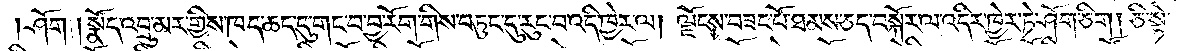ཤོག །སྣོད་འབྲུ་མར་གྱིས་ཁད་ཆད་དུ་གང་བ་བྱ་རོག་གིས་བཏུང་དུ་རུང་བ་འདི་ཁྱེར་ལ། ལྗོངས་བཟང་པོ་ཐམས་ཅད་བསྐོར་ལ་འདིར་ཁྱེར་ཏེ་ཤོག་ཅིག །ཅི་སྟེ་
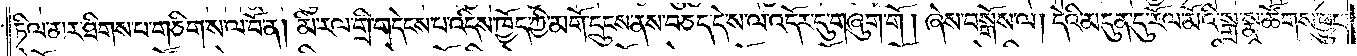ཏིལ་མར་ཐིགས་པ་གཅིག་ས་ལ་བོ་ན། མི་རལ་གྲི་གདེངས་པ་འདིས་ཁྱོད་ཀྱི་མགོ་དྲུངས་ནས་བཅད་དེ་ས་ལ་འདོར་དུ་གཞུག་གོ །ཞེས་བསྒོས་ལ། དེའི་མདུན་དུ་རོལ་མོའི་སྒྲ་སྣ་ཚོགས་ཕྱུང་
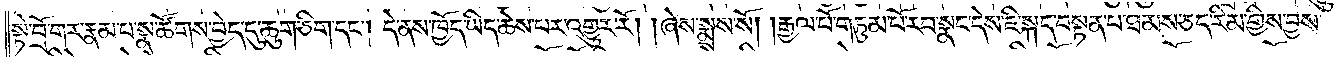སྟེ་བྲོ་གར་རྣམ་པ་སྣ་ཚོགས་བྱེད་དུ་ཆུག་ཅིག་དང༌། དེ་ནས་ཁྱོད་ཡིད་ཆེས་པར་འགྱུར་རོ། །ཞེས་སྨྲས་སོ། །རྒྱལ་པོ་གཏུམ་པོ་རབ་སྣང་དེས་ཇི་སྐད་བསྟན་པ་ཐམས་ཅད་རིམ་གྱིས་བྱས་
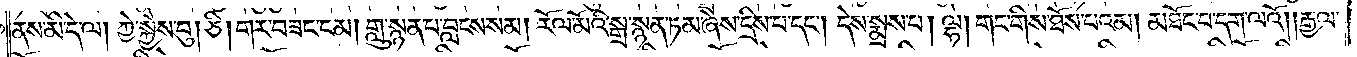ནས་མི་དེ་ལ། ཀྱེ་སྐྱེས་བུ། ཅི། གར་བཟང་ངམ། གླུ་སྙན་པ་བླངས་སམ། རོལ་མོའི་སྒྲ་སྙན་ཏམ་ཞེས་དྲིས་པ་དང༌། དེས་སྨྲས་པ། ལྷ། གང་གིས་ཐོས་པའམ། མཐོང་བ་དག་ལའོ། །རྒྱལ་
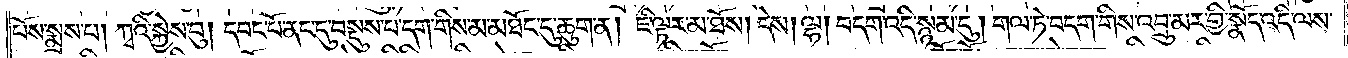པོས་སྨྲས་པ། ཀྭའི་སྐྱེས་བུ། དབང་པོ་ནང་དུ་བསྡུས་པ་དག་གིས་མ་མཐོང་དུ་ཆུག་ན། ཇི་ལྟར་མ་ཐོས། དེས། ལྷ། བདག་འདི་སྙམ་དུ། གལ་ཏེ་བདག་གིས་འབྲུ་མར་གྱི་སྣོད་འདི་ལས་
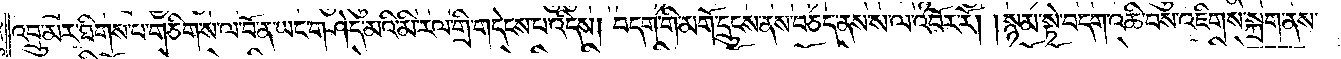འབྲུ་མར་ཐིགས་པ་གཅིག་ས་ལ་བོ་ན་ཡང་གཤེད་མའི་མི་རལ་གྲི་གདེངས་པ་འདིས། བདག་གི་མགོ་དྲུངས་ནས་བཅད་ནས་ས་ལ་འབོར་རོ། །སྙམ་སྟེ་བདག་འཆི་བས་འཇིགས་སྐྲག་ནས་
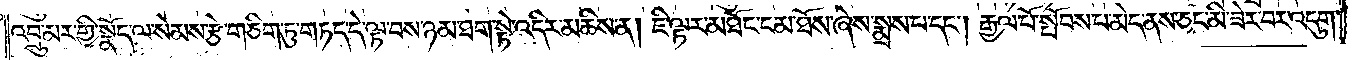འབྲུ་མར་གྱི་སྣོད་ལ་སེམས་རྩེ་གཅིག་ཏུ་གཏད་དེ་ལྟ་བས་ཉམ་ཐག་སྟེ་འདིར་མཆིས་ན། ཇི་ལྟར་མཐོང་ངམ་ཐོས་ཞེས་སྨྲས་པ་དང༌། རྒྱལ་པོ་སྤོབས་པ་མེད་ནས་ཅང་མི་ཟེར་བར་འདུག་
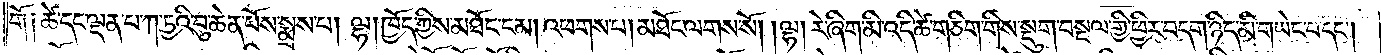གོ༑ ཚེ་དང་ལྡན་པ་ཀ་ཏྱའི་བུ་ཆེན་པོས་སྨྲས་པ། ལྷ། ཁྱོད་ཀྱིས་མཐོང་ངམ། འཕགས་པ། མཐོང་ལགས་སོ། །ལྷ། རེ་ཞིག་མི་འདི་ཚེ་གཅིག་གིས་སྡུག་བསྔལ་གྱི་ཕྱིར་བདག་ཉིད་མི་གཡེང་བ་དང༌།
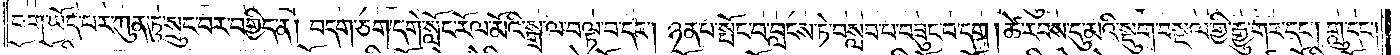བག་ཡོད་པར་ཀུན་ཏུ་སྲུང་བར་བགྱིད་ན། བདག་ཅག་དགེ་སློང་རོལ་མོའི་སྒྲ་ལ་བལྟ་བ་དང༌། ཉན་པ་སྤོང་བ་བླངས་ཏེ་བསླབ་པ་བཟུང་བ་དག །ཚེ་རབས་དུ་མའི་སྡུག་བསྔལ་གྱི་རྒྱུ་གར་དང༌། གླུ་དང་
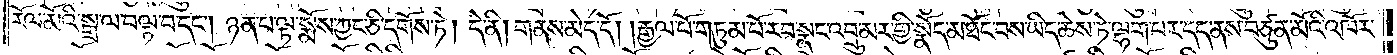རོལ་མོའི་སྒྲ་ལ་བལྟ་བ་དང༌། ཉན་པ་ལྟ་སྨོས་ཀྱང་ཅི་དགོས་ཏེ། དེ་ནི། གནས་མེད་དོ། །རྒྱལ་པོ་གཏུམ་པོ་རབ་སྣང་འབྲུ་མར་གྱི་སྣོད་མཐོང་བས་ཡིད་ཆེས་ཏེ་ལྷག་པར་དད་ནས་བཙུན་མོའི་འཁོར་
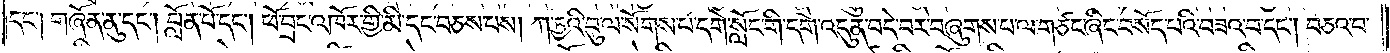དང༌། གཞོན་ནུ་དང༌། བློན་པོ་དང༌། ཕོ་བྲང་འཁོར་གྱི་མི་དང་བཅས་པས། ཀ་ཏྱའི་བུ་ལ་སོགས་པ་དགེ་སློང་གི་དགེ་འདུན་བདེ་བར་བཞུགས་པ་ལ་གཙང་ཞིང་བསོད་པའི་བཟའ་བ་དང༌། བཅའ་བ་
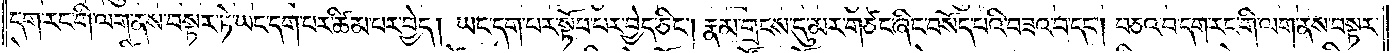དག་རང་གི་ལག་ནས་བསྟར་ཏེ་ཡང་དག་པར་ཚིམ་པར་བྱེད། ཡང་དག་པར་སྟོབ་པར་བྱེད་ཅིང༌། རྣམ་གྲངས་དུ་མར་གཙང་ཞིང་བསོད་པའི་བཟའ་བ་དང༌། བཅའ་བ་དག་རང་གི་ལག་ནས་བསྟར་
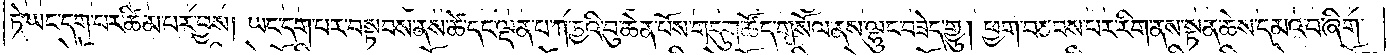ཏེ་ཡང་དག་པར་ཚིམ་པར་བྱས། ཡང་དག་པར་བསྟབས་ནས་ཚེ་དང་ལྡན་པ་ཀ་ཏྱའི་བུ་ཆེན་པོས་གདུག་ཚོད་གསོལ་ནས་ལྷུང་བཟེད་གྱུ། ཕྱག་བཅབས་པར་རིག་ནས་སྟན་ཆེས་དམའ་བ་ཞིག་
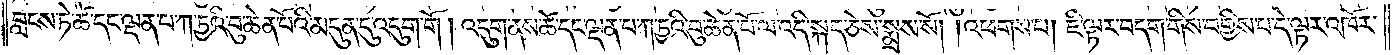བླངས་ཏེ་ཚེ་དང་ལྡན་པ་ཀ་ཏྱའི་བུ་ཆེན་པོའི་མདུན་དུ་འདུག་གོ། འདུག་ནས་ཚེ་དང་ལྡན་པ་ཀ་ཏྱའི་བུ་ཆེན་པོ་ལ་འདི་སྐད་ཅེས་སྨྲས་སོ། །འཕགས་པ། ཇི་ལྟར་བདག་གིས་བགྱིས་པ་དེ་ལྟར་འཁོར་
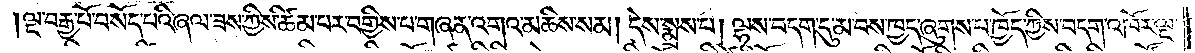ལྔ་བརྒྱ་པོ་བསོད་པའི་ཞལ་ཟས་ཀྱིས་ཚིམ་པར་བགྱིས་པ་གཞན་འགའ་མཆིས་སམ། དེས་སྨྲས་པ། ལྷས་བདག་དུ་མ་བས་ཁྱད་ཞུགས་པ་ཁྱོད་ཀྱིས་བདག་འཁོར་ལྔ་
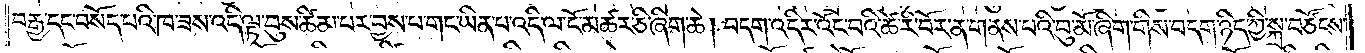བརྒྱ་དང་བསོད་པའི་ཁ་ཟས་འདི་ལྟ་བུས་ཚིམ་པར་བྱས་པ་གང་ཡིན་པ་འདི་ལ་ངོ་མཚར་ཅི་ཞིག་ཆེ། བདག་འདིར་འོང་བའི་ཚེ་རི་བོར་ན་གནས་པའི་བུ་མོ་ཞིག་གིས་བདག་ཉིད་ཀྱི་སྐྲ་བཙོངས་
